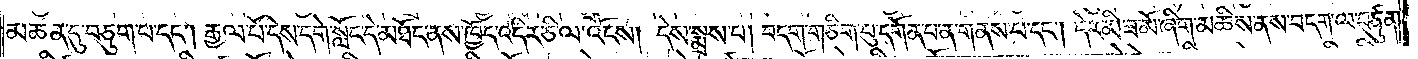མཆན་དུ་བཅུག་པ་དང༌། རྒྱལ་པོ་དེས་དགེ་སློང་དེ་མཐོང་ནས་ཁྱོད་འདིར་ཅི་ལ་འོངས། དེས་སྨྲས་པ། བདག་གཅིག་པུ་དགོན་པ་ན་གནས་པ་དང༌། དེར་མི་ཟ་མོ་ཞིག་མཆིས་ནས་བདག་ལ་བཙུན་
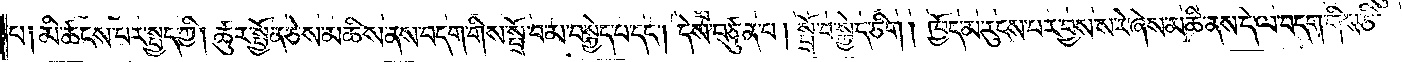པ༑ མི་ཚངས་པར་སྤྱད་ཀྱི། ཚུར་སྤྱོན་ཅེས་མཆིས་ནས་བདག་གིས་སྤྲོ་བ་མ་བསྐྱེད་པ་དང༌། དེས་བཙུན་པ། སྤྲོ་བ་སྐྱེད་ཅིག །ཁྱོད་མ་རུངས་པར་བྱས་ས་རེ་ཞེས་མཆི་ནས་དེ་ལ་བདག་གིས་ཅི་
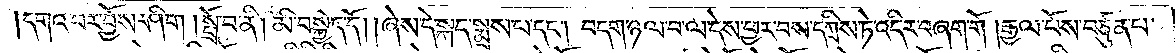དགའ་བར་བྱོས་ཤིག །སྤྲོ་བ་ནི། མི་བསྐྱེད་དོ། །ཞེས་དེ་སྐད་སྨྲས་པ་དང༌། བདག་ཉལ་བ་ལ་དེས་ཕྱར་བས་དཀྲིས་ཏེ་འདིར་བཞག་གོ །རྒྱལ་པོས་བཙུན་པ་
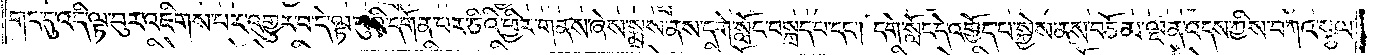གང་དུ་འདི་ལྟ་བུར་འཇིགས་པར་འགྱུར་བ་དེ་ལྟ་བུའི་དགོན་པར་ཅིའི་ཕྱིར་གནས་ཞེས་སྨྲས་ནས་དགེ་སློང་བསྐྲད་པ་དང༌། དགེ་སློང་དེ་འགྱོད་པ་སྐྱེས་ནས་བཅོམ་ལྡན་འདས་ཀྱིས་བཀའ་སྩལ་
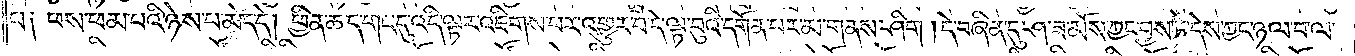པ༑ ཕས་ཕམ་པའི་ཉེས་པ་མེད་དེ། ཕྱིན་ཆད་གང་དུ་འདི་ལྟར་འཇིགས་པར་འགྱུར་བ་དེ་ལྟ་བུའི་དགོན་པར་མ་གནས་ཤིག །དེ་བཞིན་དུ་ཤ་ཟ་མོས་ཀྱང་བྱས་ཏེ་དེས་ཀྱང་ཉལ་བ་ལ་
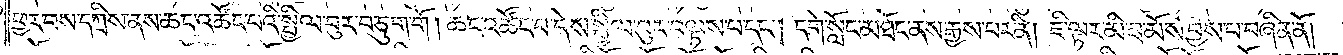ཕྱར་བས་དཀྲིས་ནས་ཆང་འཚོང་པའི་སྤྱིལ་བུར་བཅུག་གོ །ཆང་འཚོང་བ་དེས་སྤྱིལ་བུར་བལྟས་པ་དང༌། དགེ་སློང་མཐོང་ནས་རྒྱས་པར་ནི། ཇི་ལྟར་མི་ཟ་མོས་བྱས་པ་བཞིན་ནོ། །
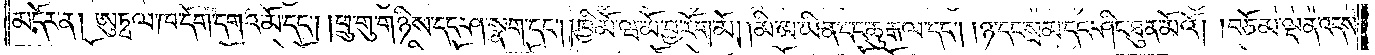མདོར་ན། ཨུཏྤ་ལ་ཁ་དོག་དགའ་མོ་དང༌། །ཕྲུ་གུ་གཉིས་དང་ཤ་སྣག་དང༌། ཁྱི་མོ་ཝ་མོ་བྱ་རོག་མོ། །མི་མ་ཡིན་དང་ཆུ་རྒལ་དང༌། །ཉ་དང་སྲམ་དང་ཤིང་ཐུན་མོའོ། །བཅོམ་ལྡན་འདས་
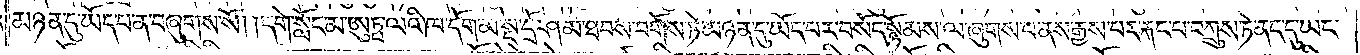མཉན་དུ་ཡོད་པ་ན་བཞུགས་སོ། །དགེ་སློང་མ་ཨུཏྤ་ལའི་ཁ་དོག་མ་སྔ་དྲོ་ཤམ་ཐབས་བགོས་ཏེ་མཉན་དུ་ཡོད་པར་བསོད་སྙོམས་ལ་ཞུགས་པ་ནས་རྒྱས་པར་རྐང་པ་བཀྲུས་ཏེ་ནང་དུ་ཡང་
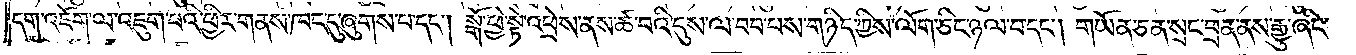དག་འཇོག་ལ་འཇུག་པའི་ཕྱིར་གནས་ཁང་དུ་ཞུགས་པ་དང༌། སྒོ་ཕྱེ་སྟེ་འཕྲེས་ནས་ཚ་བའི་དུས་ལ་བབ་པས་གཉིད་ཀྱིས་ལོག་ཅིང་ཉལ་བ་དང༌། གཡོན་ཅན་སྲང་ཕྲན་ནས་རྒྱུ་ཞིང་
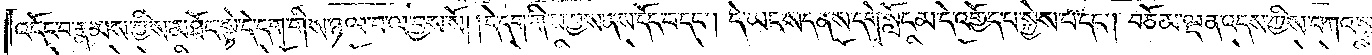འདོང་བ་རྣམས་ཀྱིས་མཐོང་སྟེ་དེ་དག་གིས་ཉལ་བ་ལ་བྱས་སོ། །དེ་དག་གིས་བྱས་ནས་དོང་བ་དང༌། དེ་ཡང་སད་ནས་དགེ་སློང་མ་དེ་འགྱོད་པ་སྐྱེས་པ་དང༌། བཅོམ་ལྡན་འདས་ཀྱིས་བཀའ་སྩལ་
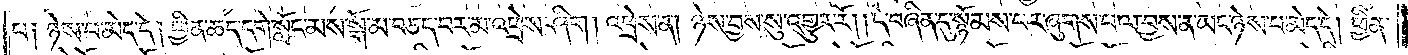པ༑ ཉེས་པ་མེད་དེ། ཕྱིན་ཆད་དགེ་སློང་མས་སྒོ་མ་བཅད་བར་མ་འཕྲེས་ཤིག །འཕྲེས་ན། ཉེས་བྱས་སུ་འགྱུར་རོ། །དེ་བཞིན་དུ་སྙོམས་པར་ཞུགས་པ་ལ་བྱས་ན་ཡང་ཉེས་པ་མེད་དེ། ཕྱིན་
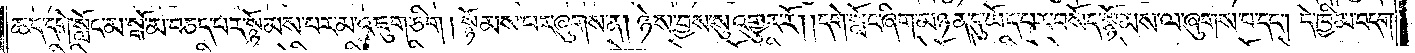ཆད་དགེ་སློང་མ་སྒོམ་བཅད་པར་སྙོམས་པར་མ་འཇུག་ཅིག །སྙོམ་པར་ཞུགས་ན། ཉེས་བྱས་སུ་འགྱུར་རོ། །དགེ་སློང་ཞིག་མཉན་དུ་ཡོད་པར་བསོད་སྙོམས་ལ་ཞུགས་པ་དང༌། དེ་ཁྱིམ་བདག་
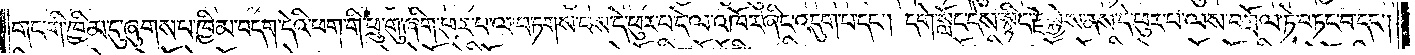གང་གི་ཁྱིམ་དུ་ཞུགས་པ་ཁྱིམ་བདག་དེའི་ཕག་གི་ཕྲུ་གུ་ཞིག་ཕུར་པ་ལ་བཏགས་པས་དེ་ཕུར་པ་དེ་ལ་འཁོར་ཞིང་འདུག་པ་དང༌། དགེ་སློང་དེས་སྙིང་རྗེ་སྐྱེས་ནས་དེ་ཕུར་པ་ལས་བཀྲོལ་ཏེ་བཏང་བ་དང༌།
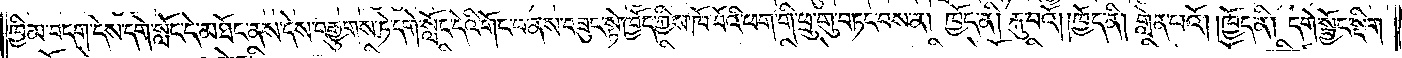ཁྱིམ་བདག་དེས་དགེ་སློང་དེ་མཐོང་ནས་དེས་བརྒྱུགས་ཏེ་དགེ་སློང་དེའི་གོང་བ་ནས་བཟུང་སྟེ་ཁྱོད་ཀྱིས་ཁོ་བོའི་ཕག་གི་ཕྲུ་གུ་བཏང་བས་ན། ཁྱོད་ནི། རྐུ་བའོ། །ཁྱོད་ནི། གླེན་པའོ། །ཁྱོད་ནི། དགེ་སྦྱོང་སྡིག་
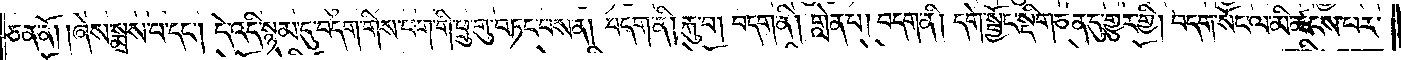ཅན་ནོ། །ཞེས་སྨྲས་པ་དང༌། དེ་འདི་སྙམ་དུ་བདག་གིས་ཕག་གི་ཕྲུ་གུ་བཏང་བས་ན། བདག་ནི། རྐུ་བ། བདག་ནི། གླེན་པ། བདག་ནི། དགེ་སྦྱོང་སྡིག་ཅན་དུ་གྱུར་གྱི། བདག་སོང་ལ་མི་ཚངས་པར་
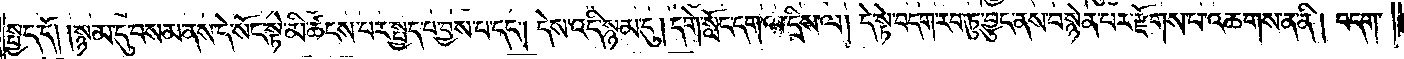སྤྱད་དོ། །སྙམ་དུ་བསམ་ནས་དེ་སོང་སྟེ་མི་ཚངས་པར་སྤྱད་པ་བྱས་པ་དང༌། དེས་འདི་སྙམ་དུ། དགེ་སློང་དག་ལ་དྲིས་ལ། དེ་སྟེ་བདག་རབ་ཏུ་བྱུང་ནས་བསྙེན་པར་རྫོགས་པ་འཆགས་ན་ནི། བདག་
